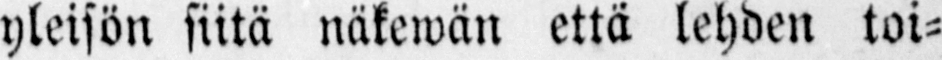yleisön siitä näkewän että lehden toi-
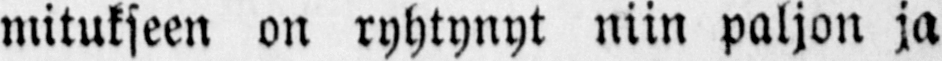mitukseen on ryhtynyt niin paljon ja
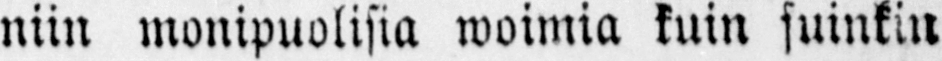niin monipuolisia woimia kuin suinkin
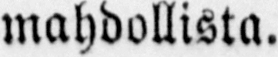mahdollista.
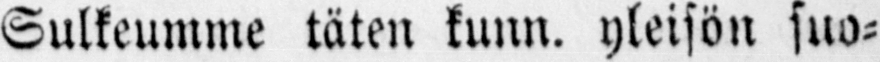Sulkeumme täten kunn. yleisön suo-
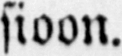sioon.
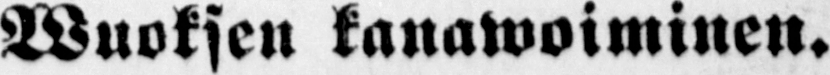Wuoksen kanawoiminen.
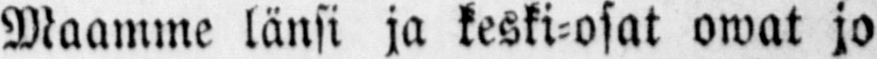Maamme länsi ja keski-osat owat jo
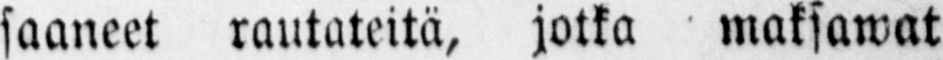saaneet rautateitä, jotka maksawat
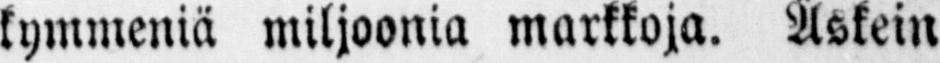kymmeniä miljoonia markkoja. Äskein
